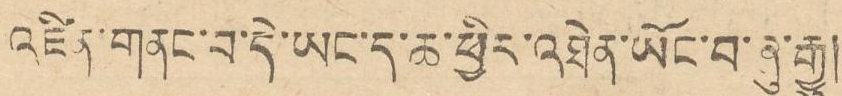འཛིན་གནང་བ་དེ་ཡང་ད་ཆ་ཕྱིར་འཐེན་ཡོང་བ་ཞུ་རྒྱུ།
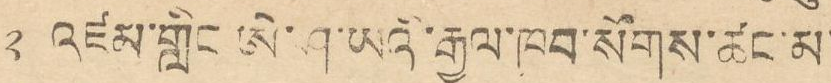༢ འཛམ་གླིང་ཨེ་ཤ་ཡའི་རྒྱལ་ཁབ་སོགས་ཚང་མ་
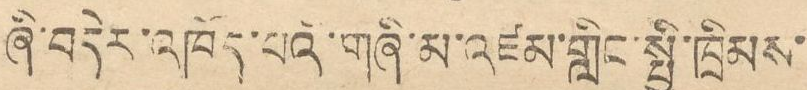ཞི་བདེར་འཁོད་པའི་གཞི་མ་འཛམ་གླིང་སྤྱི་ཁྲིམས་
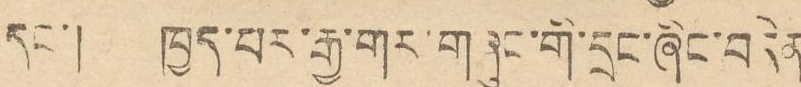དང་། ཁྱད་པར་རྒྱ་གར་གཞུང་གི་དྲང་ཞིང་བདེན
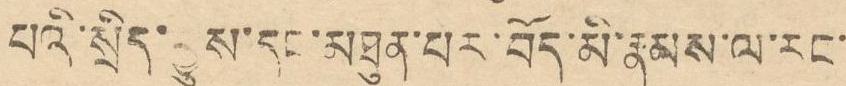པའི་སྲིད་བྱུས་དང་མཐུན་པར་བོད་མི་རྣམས་ལ་རང་
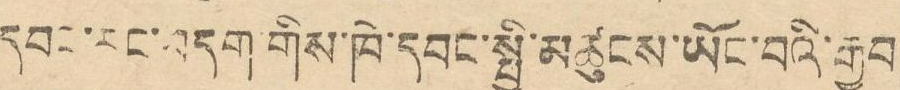དབང་རང་བདག་གིས་ཁེ་དབང་སྤྱི་མཚུངས་ཡོང་བའི་རྒྱབ
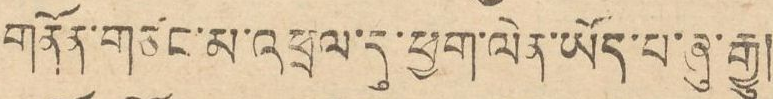གནོན་གཙང་མ་འཕྲལ་དུ་ཕྱག་ལེན་ཡོད་པ་ཞུ་རྒྱུ།
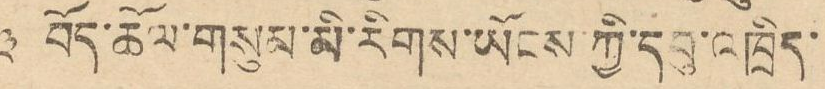༣ བོད་ཆོལ་གསུམ་མི་རིགས་ཡོངས་ཀྱི་དབུ་འཁྲིད་
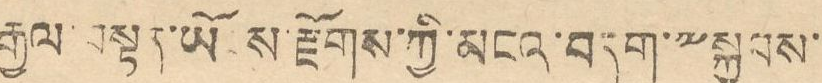རྒྱལ་བསྟན་ཡོངས་རྫོགས་ཀྱི་མངའ་བདག་༸སྐྱབས་
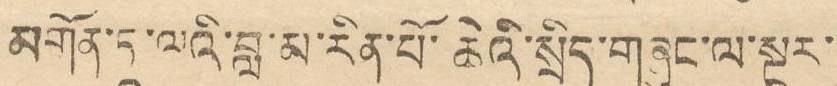མགོན་ཏཱ་ལའི་བླ་མ་རིན་པོ་ཆེའི་སྲིད་གཞུང་ལ་སྔར་
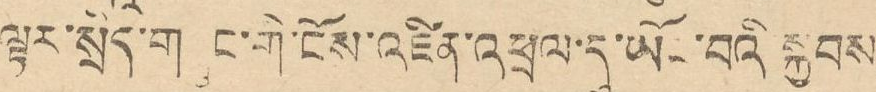ལྟར་སྲིད་གཞུང་གི་ངོས་འཛིན་འཕྲལ་དུ་ཡོང་བའི སྐྱབས
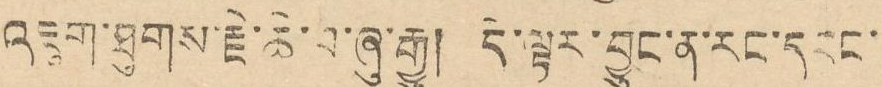འཇུག་ཐུགས་རྗེ་ཆེ་བ་ཞུ་རྒྱུ། དེ་ལྟར་བྱུང་ན་རང་དབང་
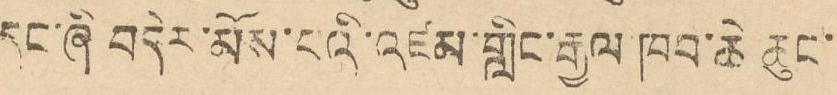དང་ཞི བདེར་མོས་པའི་འཛམ་གླིང་རྒྱལ ཁབ་ཆེ་ཆུང་
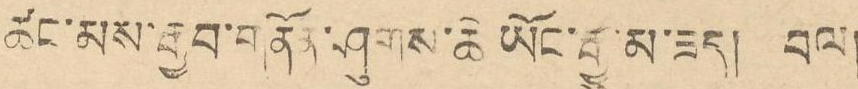ཚང་མས་རྒྱབ་གནོན་ཤུགས་ཆེ ཡོང་རྒྱུ་མ་ཟད། བལ།
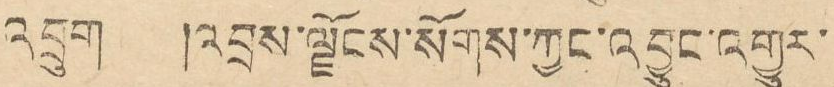འབྲུག །འབྲས་ལྗོངས་སོགས་ཀྱང་འབྱུང་འགྱུར་
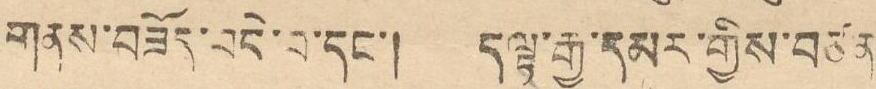གནས་བཟོད་བདེ་བ་དང་། དལྟ་རྒྱ་དམར་གྱིས་བཙན་
